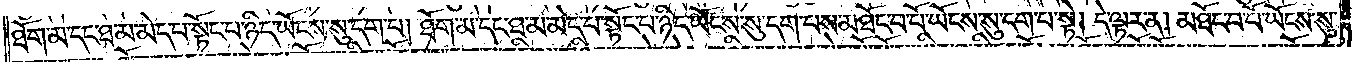ཐོག་མ་དང་ཐ་མ་མེད་པ་སྟོང་པ་ཉིད་ཡོངས་སུ་དག་པ། ཐོག་མ་དང་ཐ་མ་མེད་པ་སྟོང་པ་ཉིད་ཡོངས་སུ་དག་པས་མཐོང་བ་པོ་ཡོངས་སུ་དག་པ་སྟེ། དེ་ལྟར་ན། མཐོང་བ་པོ་ཡོངས་སུ་
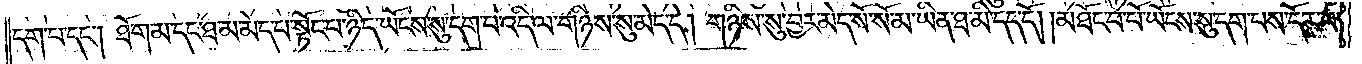དག་པ་དང༌། ཐོག་མ་དང་ཐ་མ་མེད་པ་སྟོང་པ་ཉིད་ཡོངས་སུ་དག་པ་འདི་ལ་གཉིས་སུ་མེད་དེ། གཉིས་སུ་བྱར་མེད་སོ་སོ་མ་ཡིན་ཐ་མི་དད་དོ། །མཐོང་བ་པོ་ཡོངས་སུ་དག་པས་དོར་བ་
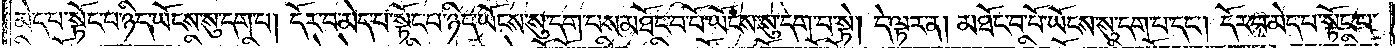མེད་པ་སྟོང་པ་ཉིད་ཡོངས་སུ་དག་པ། དོར་བ་མེད་པ་སྟོང་པ་ཉིད་ཡོངས་སུ་དག་པས་མཐོང་བ་པོ་ཡོངས་སུ་དག་པ་སྟེ། དེ་ལྟར་ན། མཐོང་བ་པོ་ཡོངས་སུ་དག་པ་དང༌། དོར་བ་མེད་པ་སྟོང་པ་
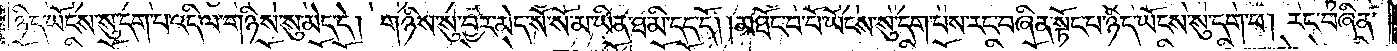ཉིད་ཡོངས་སུ་དག་པ་འདི་ལ་གཉིས་སུ་མེད་དེ། གཉིས་སུ་བྱར་མེད་སོ་སོ་མ་ཡིན་ཐ་མི་དད་དོ། །མཐོང་བ་པོ་ཡོངས་སུ་དག་པས་རང་བཞིན་སྟོང་པ་ཉིད་ཡོངས་སུ་དག་པ། རང་བཞིན་
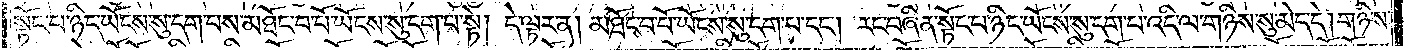སྟོང་པ་ཉིད་ཡོངས་སུ་དག་པས་མཐོང་བ་པོ་ཡོངས་སུ་དག་པ་སྟེ། དེ་ལྟར་ན། མཐོང་བ་པོ་ཡོངས་སུ་དག་པ་དང༌། རང་བཞིན་སྟོང་པ་ཉིད་ཡོངས་སུ་དག་པ་འདི་ལ་གཉིས་སུ་མེད་དེ། གཉིས་
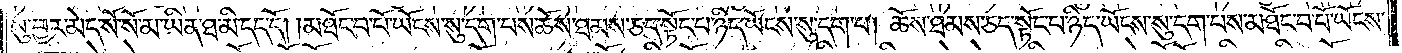སུ་བྱར་མེད་སོ་སོ་མ་ཡིན་ཐ་མི་དད་དོ། །མཐོང་བ་པོ་ཡོངས་སུ་དག་པས་ཆོས་ཐམས་ཅད་སྟོང་པ་ཉིད་ཡོངས་སུ་དག་པ། ཆོས་ཐམས་ཅད་སྟོང་པ་ཉིད་ཡོངས་སུ་དག་པས་མཐོང་བ་པོ་ཡོངས་
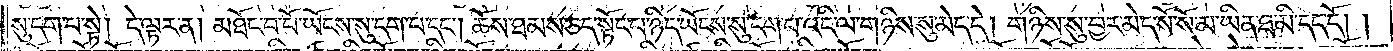སུ་དག་པ་སྟེ། དེ་ལྟར་ན། མཐོང་བ་པོ་ཡོངས་སུ་དག་པ་དང༌། ཆོས་ཐམས་ཅད་སྟོང་པ་ཉིད་ཡོངས་སུ་དག་པ་འདི་ལ་གཉིས་སུ་མེད་དེ། གཉིས་སུ་བྱར་མེད་སོ་སོ་མ་ཡིན་ཐ་མི་དད་དོ། །
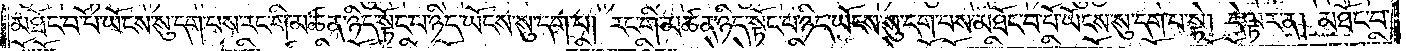མཐོང་བ་པོ་ཡོངས་སུ་དག་པས་རང་གི་མཚན་ཉིད་སྟོང་པ་ཉིད་ཡོངས་སུ་དག་པ། རང་གི་མཚན་ཉིད་སྟོང་པ་ཉིད་ཡོངས་སུ་དག་པས་མཐོང་བ་པོ་ཡོངས་སུ་དག་པ་སྟེ། དེ་ལྟར་ན། མཐོང་བ་
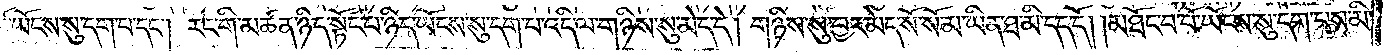པོ་ཡོངས་སུ་དག་པ་དང༌། རང་གི་མཚན་ཉིད་སྟོང་པ་ཉིད་ཡོངས་སུ་དག་པ་འདི་ལ་གཉིས་སུ་མེད་དེ། གཉིས་སུ་བྱར་མེད་སོ་སོ་མ་ཡིན་ཐ་མི་དད་དོ། །མཐོང་བ་པོ་ཡོངས་སུ་དག་པས་མི་
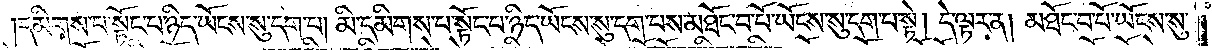དམིགས་པ་སྟོང་པ་ཉིད་ཡོངས་སུ་དག་པ། མི་དམིགས་པ་སྟོང་པ་ཉིད་ཡོངས་སུ་དག་པས་མཐོང་བ་པོ་ཡོངས་སུ་དག་པ་སྟེ། དེ་ལྟར་ན། མཐོང་བ་པོ་ཡོངས་སུ་
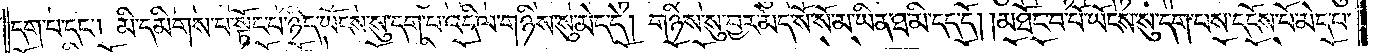དག་པ་དང༌། མི་དམིགས་པ་སྟོང་པ་ཉིད་ཡོངས་སུ་དག་པ་འདི་ལ་གཉིས་སུ་མེད་དེ། གཉིས་སུ་བྱར་མེད་སོ་སོ་མ་ཡིན་ཐ་མི་དད་དོ། །མཐོང་བ་པོ་ཡོངས་སུ་དག་པས་དངོས་པོ་མེད་པ་
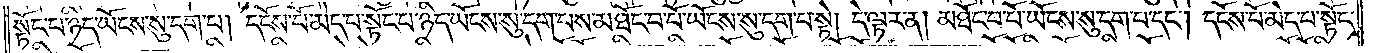སྟོང་པ་ཉིད་ཡོངས་སུ་དག་པ། དངོས་པོ་མེད་པ་སྟོང་པ་ཉིད་ཡོངས་སུ་དག་པས་མཐོང་བ་པོ་ཡོངས་སུ་དག་པ་སྟེ། དེ་ལྟར་ན། མཐོང་བ་པོ་ཡོངས་སུ་དག་པ་དང༌། དངོས་པོ་མེད་པ་སྟོང་
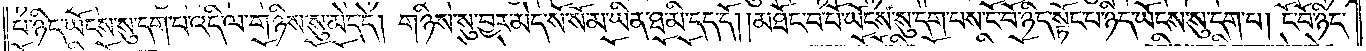པ་ཉིད་ཡོངས་སུ་དག་པ་འདི་ལ་གཉིས་སུ་མེད་དེ། གཉིས་སུ་བྱར་མེད་སོ་སོ་མ་ཡིན་ཐ་མི་དད་དོ། །མཐོང་བ་པོ་ཡོངས་སུ་དག་པས་ངོ་བོ་ཉིད་སྟོང་པ་ཉིད་ཡོངས་སུ་དག་པ། ངོ་བོ་ཉིད་
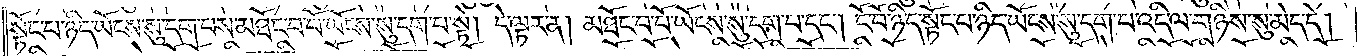སྟོང་པ་ཉིད་ཡོངས་སུ་དག་པས་མཐོང་བ་པོ་ཡོངས་སུ་དག་པ་སྟེ། དེ་ལྟར་ན། མཐོང་བ་པོ་ཡོངས་སུ་དག་པ་དང༌། ངོ་བོ་ཉིད་སྟོང་པ་ཉིད་ཡོངས་སུ་དག་པ་འདི་ལ་གཉིས་སུ་མེད་དེ།
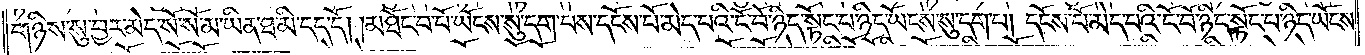གཉིས་སུ་བྱར་མེད་སོ་སོ་མ་ཡིན་ཐ་མི་དད་དོ། །མཐོང་བ་པོ་ཡོངས་སུ་དག་པས་དངོས་པོ་མེད་པའི་ངོ་བོ་ཉིད་སྟོང་པ་ཉིད་ཡོངས་སུ་དག་པ། དངོས་པོ་མེད་པའི་ངོ་བོ་ཉིད་སྟོང་པ་ཉིད་ཡོངས་
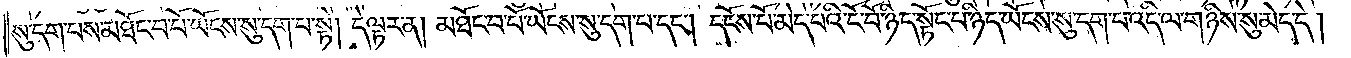སུ་དག་པས་མཐོང་བ་པོ་ཡོངས་སུ་དག་པ་སྟེ། དེ་ལྟར་ན། མཐོང་བ་པོ་ཡོངས་སུ་དག་པ་དང༌། དངོས་པ་མེད་པའི་ངོ་བོ་ཉིད་སྟོང་པ་ཉིད་ཡོངས་སུ་དག་པ་འདི་ལ་གཉིས་སུ་མེད་དེ།
